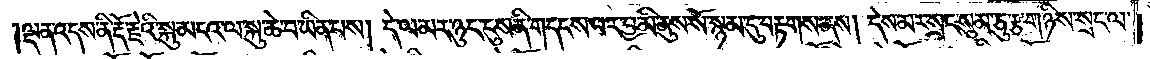ལྡན་འདས་ནི་རྡོ་རྗེའི་སྐུ་མངའ་ལ་སྐུ་ཆེ་བ་ཡིན་པས། དེ་ལ་མར་ཉུང་ངུས་ནི་གདངས་པར་བྱ་མི་ནུས་སོ་སྙམ་དུ་བརྟགས་ནས། དེས་མར་སྲང་སུམ་ཅུ་རྩ་གཉིས་སྲང་ལ་
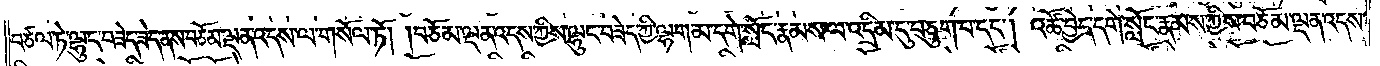བཙལ་ཏེ་ལྷུང་བཟེད་ཟེད་ནས་བཅོམ་ལྡན་འདས་ལ་གསོལ་ཏོ། །བཅོམ་ལྡན་འདས་ཀྱིས་ལྷུང་བཟེད་ཀྱི་ལྷག་མ་དགེ་སློང་རྣམས་ལ་འདྲིམ་དུ་བཅུག་པ་དང༌། འཚོ་བྱེད་དགེ་སློང་རྣམས་ཀྱིས་བཅོམ་ལྡན་འདས་
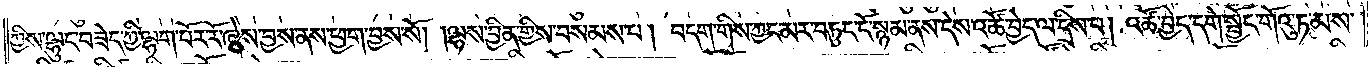ཀྱིས་ལྷུང་བཟེད་ཀྱི་ལྷག་པོར་རོ་ཞེས་བྱས་ནས་ཕྱག་བྱས་སོ། །ལྷས་བྱིན་གྱིས་བསམས་པ། བདག་གིས་ཀྱང་མར་བཏུང་ངོ་སྙམ་ནས་དེས་འཚོ་བྱེད་ལ་དྲིས་པ། འཚོ་བྱེད་དགེ་སྦྱོང་གོའུ་ཏ་མས་
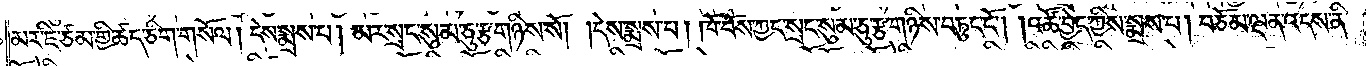མར་ཇི་ཙམ་གྱི་ཚད་ཅིག་གསོལ། དེས་སྨྲས་པ། མར་སྲང་སུམ་ཅུ་རྩ་གཉིས་སོ། །དེས་སྨྲས་པ། ཁོ་བོས་ཀྱང་སྲང་སུམ་ཅུ་རྩ་གཉིས་བཏུང་ངོ༌། །འཚོ་བྱེད་ཀྱིས་སྨྲས་པ། བཅོམ་ལྡན་འདས་ནི་
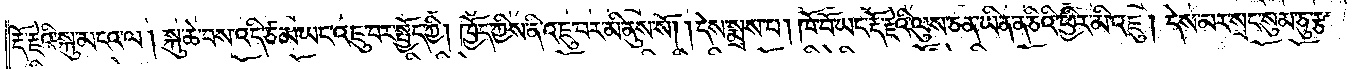རྡོ་རྗེའི་སྐུ་མངའ་ལ། སྐུ་ཆེ་བས་འདི་ཙམ་ཡང་འཇུ་བར་སྤྱོད་ཀྱི། ཁྱོད་ཀྱིས་ནི་འཇུ་བར་མི་ནུས་སོ། །དེས་སྨྲས་པ། ཁོ་བོ་ཡང་རྡོ་རྗེའི་ལུས་ཅན་ཡིན་ན་ཅིའི་ཕྱིར་མི་འཇུ། དེས་མར་སྲང་སུམ་ཅུ་རྩ་
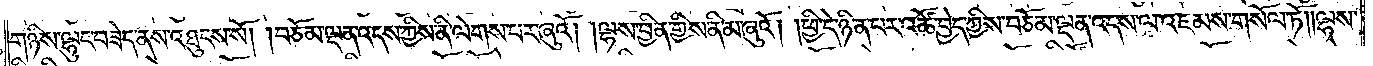གཉིས་ལྷུང་བཟེད་ནས་འཐུངས་སོ། །བཅོམ་ལྡན་འདས་ཀྱིས་ནི་ལེགས་པར་ཞུའོ། །ལྷས་བྱིན་གྱིས་ནི་མ་ཞུའོ། །ཕྱི་དེ་ཉིན་པར་འཚོ་བྱེད་ཀྱིས་བཅོམ་ལྡན་འདས་ལ་འཇམས་གསོལ་ཏོ། །ལྷས་
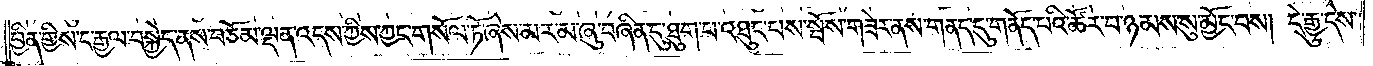བྱིན་གྱིས་ང་རྒྱལ་བསྐྱེད་ནས་བཅོམ་ལྡན་འདས་ཀྱིས་ཀྱང་གསོལ་ཏོ་ཞེས་མར་མ་ཞུ་བཞིན་དུ་ཐུག་པ་འཐུང་པས་སྤོས་གཟེར་ནས་གནད་དུ་གནོད་པའི་ཚོར་བ་ཉམས་སུ་མྱོང་བས། དེ་རྒྱུ་དེས་
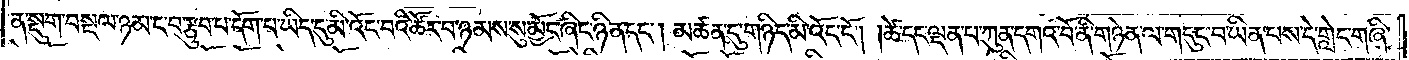ན་སྡུག་བསྔལ་ཉམ་ང་བ་རྩུབ་པ་དོག་པ་ཡིད་དུ་མི་འོང་བའི་ཚོར་བ་ཉམས་སུ་མྱོང་ཞིང་ཉིན་དང༌། མཚན་དུ་གཉིད་མི་འོང་ངོ༌། །ཚེ་དང་ལྡན་པ་ཀུན་དགའ་བོ་ནི་གཉེན་ལ་གདུང་བ་ཡིན་པས་དེ་གླེང་གཞི་
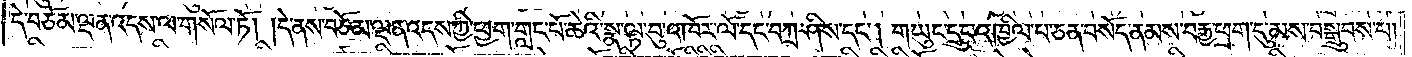དེ་བཅོམ་ལྡན་འདས་ལ་གསོལ་ཏོ། །དེ་ནས་བཅོམ་ལྡན་འདས་ཀྱི་ཕྱག་གླང་པོ་ཆེའི་སྣ་ལྟ་བུ་འཁོར་ལོ་དང་བཀྲ་ཤིས་དང༌། གཡུང་དྲུང་འཁྱིལ་པ་ཅན་བསོད་ནམས་བརྒྱ་ཕྲག་དུ་མས་བསྒྲུབས་པ།
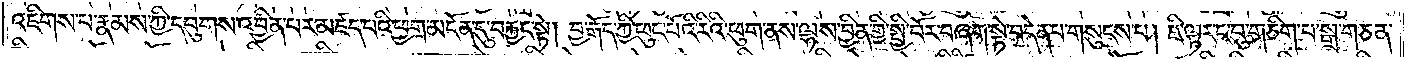འཇིགས་པ་རྣམས་ཀྱི་དབུགས་འབྱིན་པར་མཛད་པའི་ཕྱག་མངོན་དུ་བརྐྱང་སྟེ། བྱ་རྒོད་ཀྱི་ཕུང་པོའི་རིའི་ཕུག་ནས་ལྷས་བྱིན་གྱི་སྤྱི་བོར་བཞག་སྟེ་བདེན་པ་གསུངས་པ། ཇི་ལྟར་ང་བུ་གཅིག་པ་སྒྲ་གཅན་
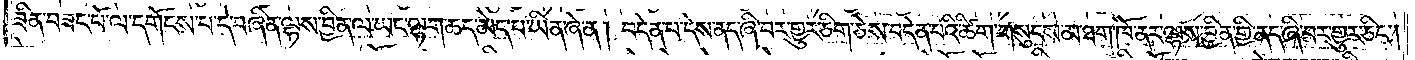ཟིན་བཟང་པོ་ལ་དགོངས་པ་དེ་བཞིན་ལྷས་བྱིན་ལ་ཡང་ལྷག་ཆད་མེད་པ་ཡིན་ཞེ་ན། བདེན་པ་དེས་ནད་ཞི་བར་གྱུར་ཅིག་ཅེས་བདེན་པའི་ཚིག་གསུངས་མ་ཐག་ཁོ་ནར་ལྷས་བྱིན་གྱི་ནད་ཞི་བར་གྱུར་ཅིང༌།
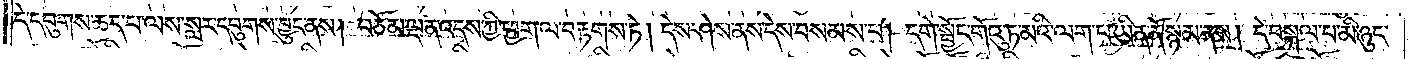དེ་དབུགས་ཆད་པ་ལས་སླར་དབུགས་བྱུང་ནས། བཅོམ་ལྡན་འདས་ཀྱི་ཕྱག་ལ་བརྟགས་ཏེ། དེས་ཤེས་ནས་དེས་བསམས་པ། དགེ་སྦྱོང་གོའུ་ཏ་མའི་ལག་པ་ཡིན་ནོ་སྙམ་ནས། དེ་བསྐལ་པ་མི་ཉུང་
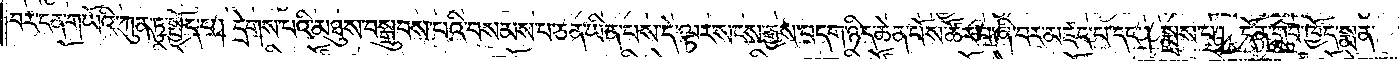བར་ངན་གཡོའི་ཀུན་ཏུ་སྤྱོད་པ། དྲེགས་པའི་མཐུས་བསྒྲུབས་པའི་བསམས་པ་ཅན་ཡིན་པས་དེ་ལྟར་སངས་རྒྱས་བདག་ཉིད་ཆེན་པོས་ཚོར་བ་ཞི་བར་མཛད་པ་དང༌། སྨྲས་པ། དོན་གྲུབ་ཁྱོད་སྨན་
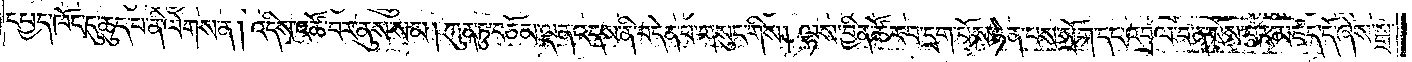དཔྱད་ཁོང་དུ་ཆུད་པ་ནི་ལེགས་ན། འདིས་འཚོ་བར་ནུས་སམ། ཀུན་ཏུ་བཅོམ་ལྡན་འདས་ནི་བདེན་པ་གསུང་གིས། ལྷས་བྱིན་ཚོར་བ་དྲག་པོས་ཉེན་པས་སྲོག་དང་འབྲལ་བ་ན་སོས་པར་མཛད་དོ་ཞེས་སྒྲ་
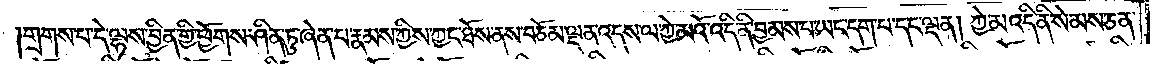གྲགས་པ་དེ་ལྷས་བྱིན་གྱི་ཕྱོགས་ཤིན་ཏུ་ཞེན་པ་རྣམས་ཀྱིས་ཀྱང་ཐོས་ནས་བཅོམ་ལྡན་འདས་ལ་ཀྱེ་མའོ་འདི་ནི་བྱམས་པ་ཡང་དག་པ་དང་ལྡན། ཀྱེ་མ་འདི་ནི་སེམས་ཅན་
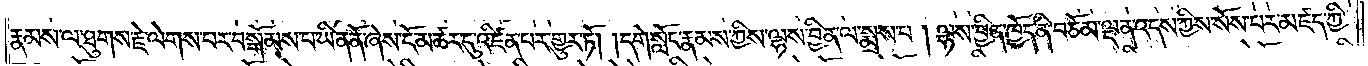རྣམས་ལ་ཐུགས་རྗེ་ལེགས་པར་བསྒོམས་པ་ཡིན་ནོ་ཞེས་ངོ་མཚར་དུ་འཛིན་པར་གྱུར་ཏོ། །དགེ་སློང་རྣམས་ཀྱིས་ལྷས་བྱིན་ལ་སྨྲས་པ། ལྷས་བྱིན་ཁྱོད་ནི་བཅོམ་ལྡན་འདས་ཀྱིས་སོས་པར་མཛད་ཀྱི་
